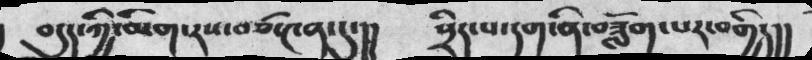བདུད་ཀྱི་མིག་རས་བཙ་༤ན་དུ་།།    སྲིད་པ་དག་ནི་བཟློག་པར་བགྱིད།།
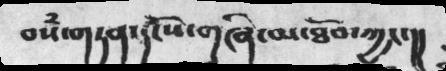བསཾ་གཏན་དངོས་གཞི་མ་ཐོབ་ཀྱང་།།
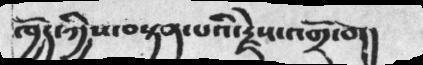ཁྱོད་ཀྱིས་བསྟན་པའི་རྗེས་འགྲོ་བོ།།
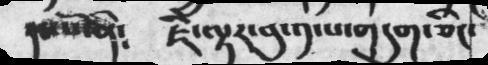དང་པོ་ནི༴  ཇི་ལྟར་བུ་༡་པ་གདུག་ཅིང་
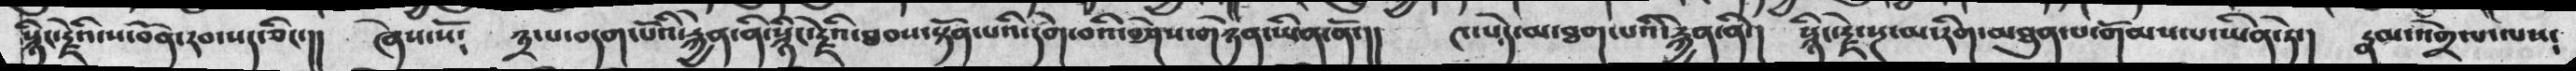སྙིང་རྗེའི་ས་བོན་རབ་སད་ཅིང་།།   ཞེས་སོ༴  ༣་པ་བདག་པོའི་རྐྱེན་ནི་སྙིང་རྗེའི་ཐབས་སྟོན་པའི་དགེ་བའི་བཤེས་གཉེན་ཡིན་ནོ་།།  ༤་པདེ་མ་ཐག་པའི་རྐྱེན་ནི་།   སྙིང་རྗེ་སྔ་མ་རིག་མཐུན་པ་གོམས་པ་ཡིན་ཏེ་།   རྣམ་འགྲེལ་ལས༴
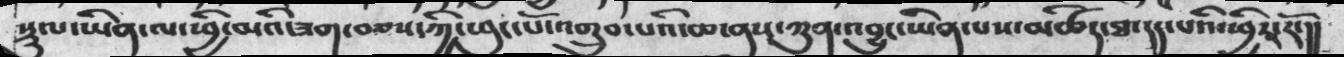སྡུལ་ཡིན་ལ་ཕྱི་མའི་ཟག་བཅས་ཀྱི་ཕུང་པོ་འགྲུབ་པའི་ཆ་ནས་ཀུན་འབྱུང་ཇཡིན་པས་མཚེད་ཐ་དད་པའི་ཕྱིར་རོ་།།
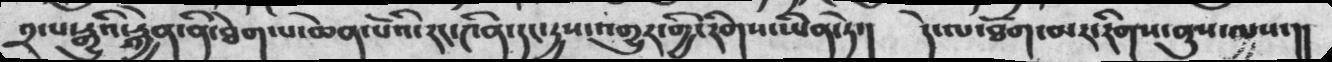༢་པ་རྒྱུའི་རྐྱེན་ནི་ཐེག་པ་ཆེན་པོའི་རང་༤ིན་དང་རྒྱས་འགྱུར་གྱི་རིགས་ཡིན་ཏེ་།   དེ་ལ་ཐོག་མར་རིིགས་ནུས་ལད་།།
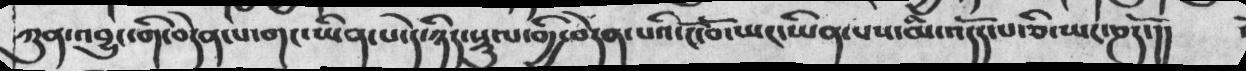ཀུན་འབྱུང་གི་བདེན་པ་གང་ཡིན་པ་དེ་ཉིད་སྡུལ་གྱི་བདེན་པའི་ངོ་བོ་ཡང་ཡིན་པས་མི་འདོད་པ་ཅི་ཡང་ཎདོ་།།
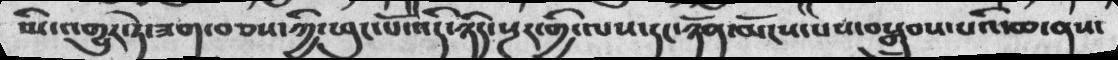མི་འགྱུར་ཏེ་ཟག་བཅས་ཀྱི་ཕུང་པོ་འདི་ཉིད་སྔར་གྱི་ལས་དང་ཉོན་མོངས་པས་བསྒྲུབས་པའི་ཆ་ནས་
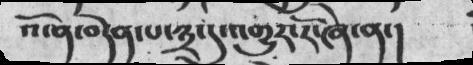འོ་ན་བདེན་པ་༣་དུ་འགྱུར་རོ་ཞེ་ན་།
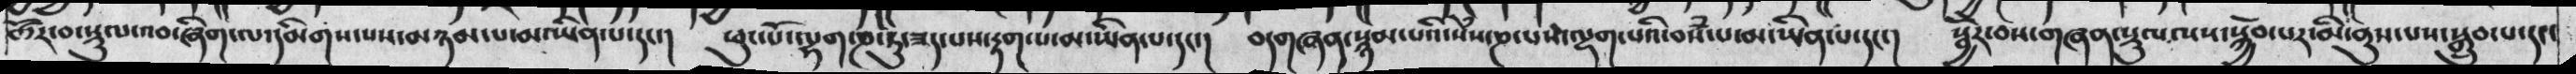ཚོར་བ་སྡུལ་འབ་ཞིག་ལ་དམིགས་པས་མཉམ་པ་མ་ཡིབ་པ་དང་།  ཕུང་པོ་ལྷག་ཎ་ཏུ་ཟད་པས་རྟག་པ་མ་ཡིན་པ་དང་།  བདགཞན་སྙམ་པའི་སེཾས་ཎ་པས་ལྷག་པའི་བསཾ་པ་མ་ཡིན་པ་དང་།  སྦྱིན་བས་གཞན་སྡུལ་ལས་སྐྱོབ་པར་མི་ནུས་པས་སྒྲུབ་པ་དང་
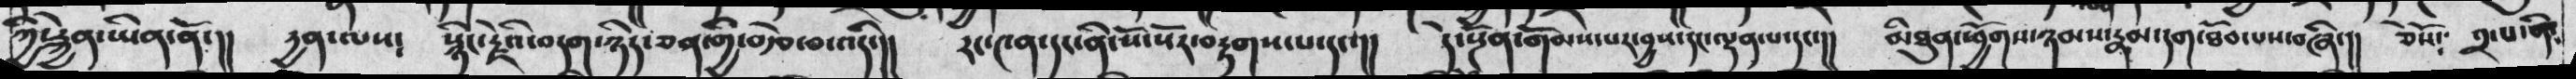ཀྱི་རྐྱེན་ཡིན་ནོ་།།  དྱན་ལས༴  སྙིང་རྗེའི་བདག་ཉིད་ཅན་གྱི་བརྩེ་བ་འདི་།།  རང་༤ན་དང་ནི་སོ་སོར་བརྟགས་པ་དང་།།  དེ་སྔོན་གོམས་པར་བྱས་དང་ལྡན་པ་དང་།།  མིཐུན་ཕྱོགས་ཉམས་རྣམ་དག་ཐོབ་པས་བཞི་།།  ཅེསོ༴ ༢་པ་ནི་
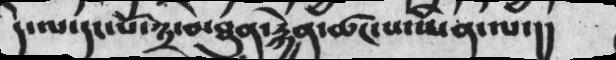དེ་ལ་དང་པོ་༣་མཐུན་རྐྱེན་ཚང་པ་ཡིན་པ་།།
